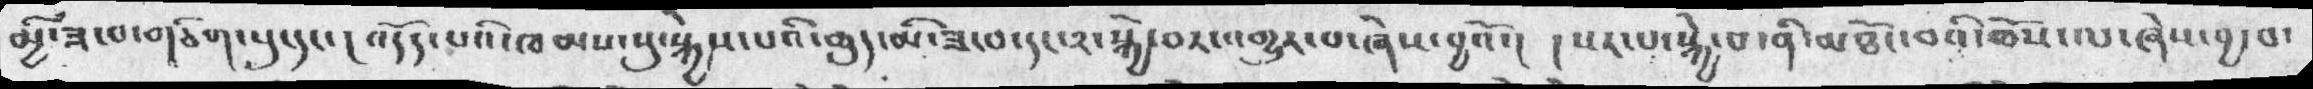མྱི་ཟ་བ་གཅིག་པུ་དང་། འདོད་པའི་ཁམས་སུ་སྐྱེས་པའི་ཆུད་མི་ཟ་བ་དང་༢་སྐྱེ་བར་འགྱུར་པ་ཞེས་བྱའོ་། །སར་པ་སྐྱེ་བ་ནི་མཐོང་བའི་ཆོས་ལ་ཞེས་བྱ་བ་
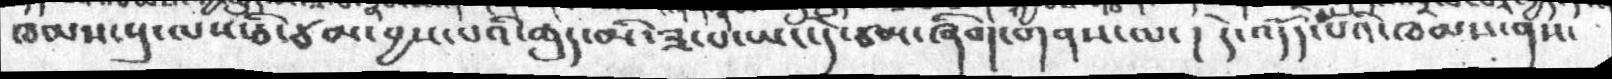ཁམས་སུ་ལས་ཅི་ཙམ་བྱས་པའི་ཆུད་མི་ཟ་པ་ཡང་དེ་ཙམ་ཞིག་གནས་ལ་།  དེ་འདོད་པའི་ཁམས་ནས་
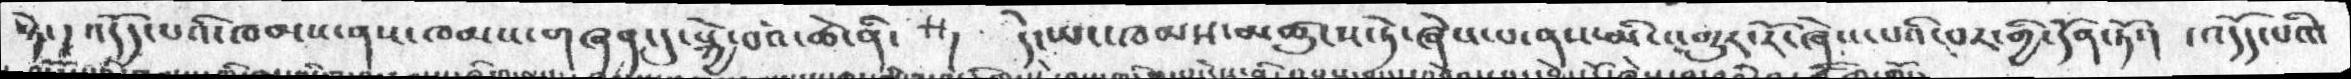སྟེ་།  འདོད་པའི་ཁམས་ནས་ཁམས་གཞན་དུ་སྐྱེ་བའི་ཚེ་ནི་  །  དེ་ཡང་ཁམས་མཚུངས་ཏེ་ཞེས་པ་ནས་མི་འགྱུར་རོ་ཞེས་པའི་བར་གྱི་དོན་ཏོ་།  ། འདོད་པའི་
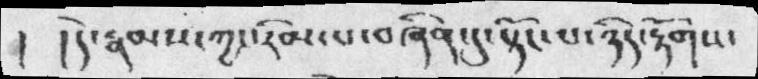།    ། དེ་རྣམས་ཀྱང་རིམ་པ་བཞིན་དུ་སྟོང་པ་ཉིད་རྟོགས་
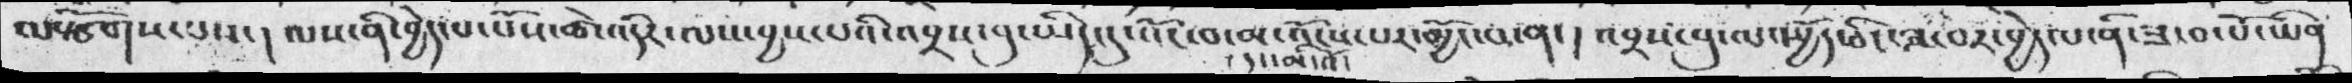ལསྩོགས་པས་།  ལས་ནི་བྱེད་པ་པོས་ཚེ་འདིར་ལས་བྱས་པའི་འབྲས་བུ་ཡིད་དུ་འོང་བ་མ་འོངས་པར་མྱོར་པ་ན་།  འབྲས་བུ་ལ་སྤྱོད་ཅིང་ཟ་བར་བྱེད་པ་ནི་ཟ་བ་པོ་ཡིན
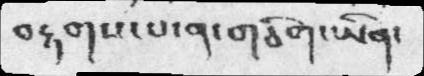བརྟགས་པ་ན་གཅིག་ཡིན་
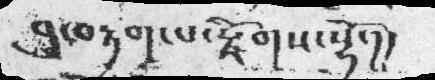བུ་བརྟག་པ་རྫོགས་སྷོ་།།
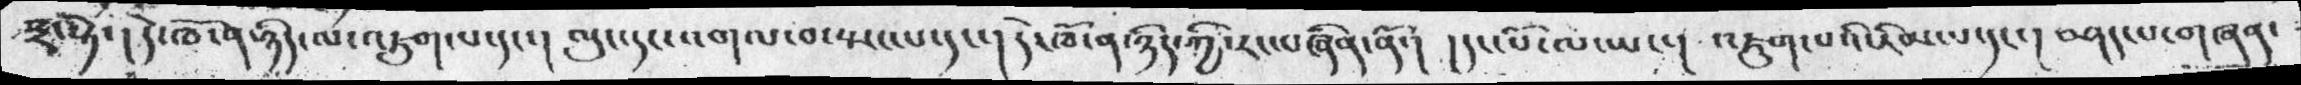སྨྲ་སྟེ་།   དེ་ཁོ་ན་ཉིད་ལ་འཇུག་པདང་།  ལུང་དང་འགལ་བ་སྤངས་པ་དང་།  དེ་ཁོ་ན་ཉིད་ཀྱི་རང་བཞིན་ནོ་།   ། དང་པོ་ལ་ཡང་།   འཇུག་པའི་རིམ་པ་དང་།  བཤད་པ་གཞན་
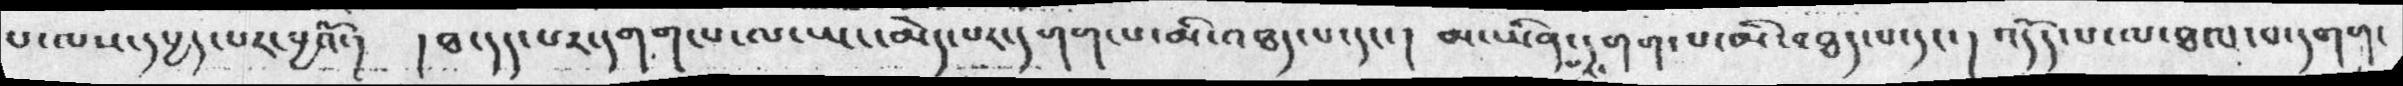པ་ལས་དཔྱད་པར་བྱའོ་།   ། ཐ་དད་པར་དགག་པ་ལ་ཡང་མེད་པར་དགག་པ་མི་འཐད་པ་དང་།   མ་ཡིན་པར་དགག་པ་མི་འཐད་པ་དང་།  འདོད་པ་ལ་ཐལ་བ་དགག་
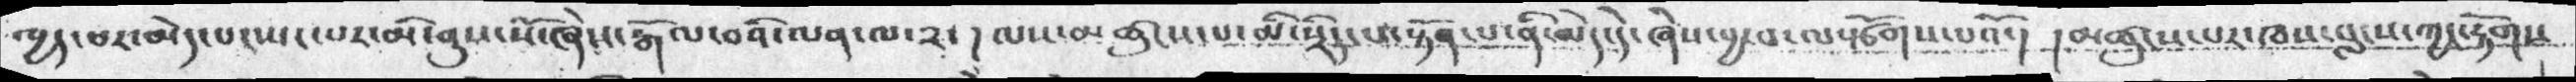ཁྱད་པར་མེད་པ་སྤང་པར་མི་ནུས་སོ་ཞེས་རྒོལ་བའི་ལན་ལ༢་ ། ལས་མཚུངས་པ་མི་སྲིད་པ་སྟོན་པ་ནི་མེད་དེ་ཞེས་བྱ་བ་ལསྩོགས་པའོ་།  ། མཚུངས་པར་ཁས་བླངས་ཀྱང་རྟོགས་
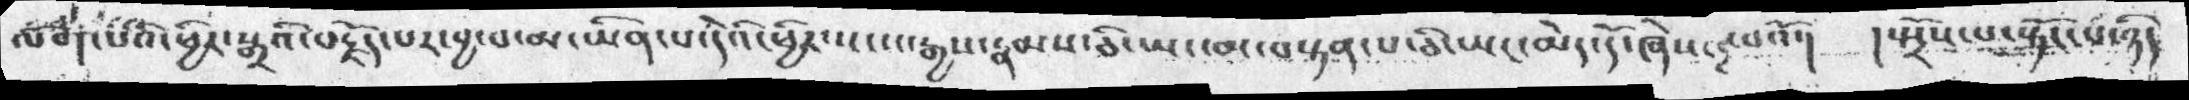ལོག་པའི་ཕྱིར་སྒྲའི་བརྗོད་པར་བྱ་བ་མ་ཡིན་པ་དེའི་ཕྱིར་སངས་རྒྱས་རྣམས་ཅི་ཡང་མ་བསྟན་པ་ཅི་ཡང་མེད་དོ་ཞེས་པའོ་།   ། སྤྲོས་པ་སྟོང་པ་ཉིད
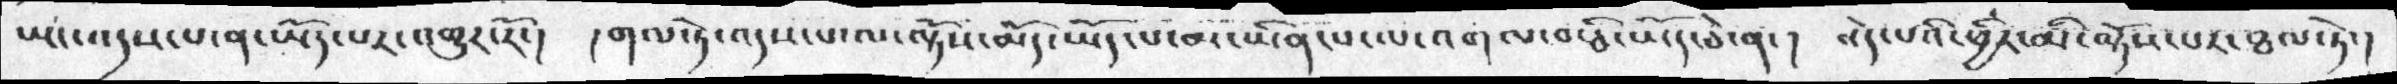ཡང་འདས་པ་ན་ཡོད་པར་འགྱུར་རོ་།  །གལ་ཏེ་འདས་པ་ལ་ལྟོས་མོད་ཡོད་པ་མ་ཡིན་པ་ལ་འགལ་བ་ཅི་ཡོད་ཅེ་ན་།   བེད་པའི་ཕྱིར་མི་ལྟོས་པར་ཐལ་ཏེ་།
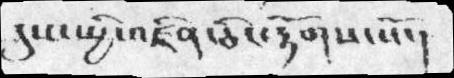དུས་སྤྱི་འཛིན་ཅིང་རྟོགས་སོ་།
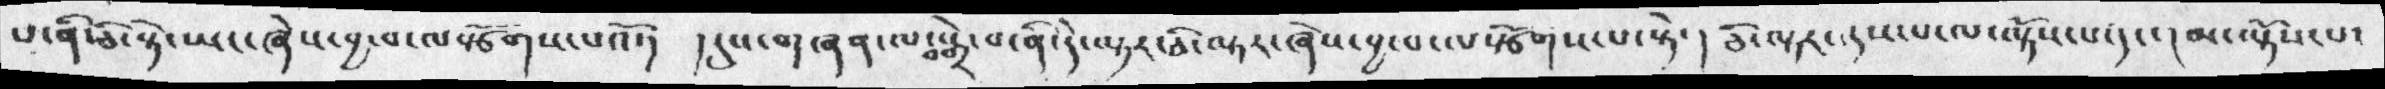པ་ནི་ཅི་སྟེ་ཡང་ཞེས་བྱ་བ་ལསྩོགས་པའོ་།   ། དུས་གཞན་ལ་བསྒྲེ་པ་ནི་དེ་ལྟར་ཅི་ལྟར་ཞེས་བྱ་བ་ལསྩོགས་པ་སྟེ་།  ཅི་ལྟར་དུས་པ་ལ་ལྟོས་པ་དང་།  མ་ལྟོས་པ་
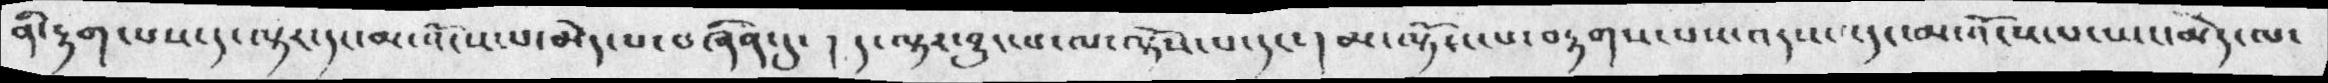ནི་རྟག་པས་ད་ལྟར་དང་མ་འོངས་པ་མེད་པ་བཞིན་དུ་    ། ད་ལྟར་བྱུང་པ་ལ་ལྟོས་པ་དང་ །མ་ལྟོས་པ་བཏགས་པས་འདས་པ་དང་མ་འོངས་པ་ཡང་མེད་ལ་
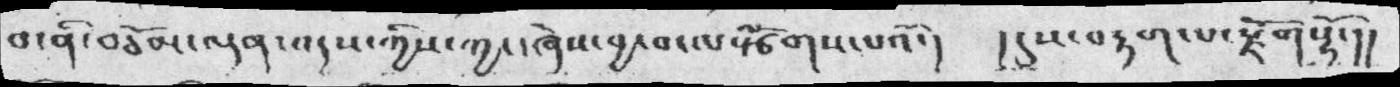བ་ནི་བཅོམ་ལྡན་འདས་ཀྱིས་ཀྱང་ཞེས་བྱ་བ་ལསྩོགས་པའོ་། །དུས་བརྟག་པ་རྫོགསྷོ་།།
